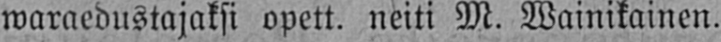waraedustajaksi opett. neiti M. Wainikainen.
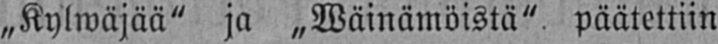„Kylwäjää" ja „Wäinämöistä" päätettiin
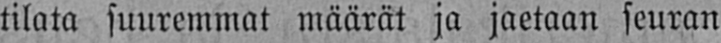tilata suuremmat määrät ja jaetaan seuran
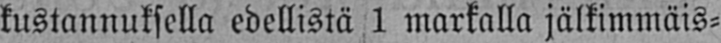kustannuksella edellistä 1 markalla jälkimmäis-
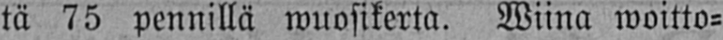tä 75 pennillä wuosikerta. Wiina woitto-
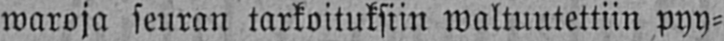waroja seuran tarkoituksiin waltuutettiin pyy-
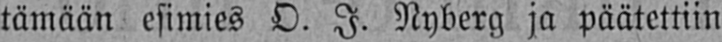tämään esimies O. I. Nyberg ja päätettiin
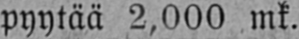pyytää 2,000 mk.
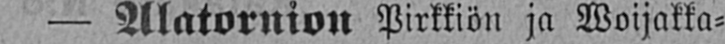— Alatornion Pirkkiön ja Woijakka-
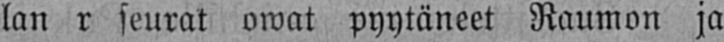lan r seurat owat pyytäneet Raumon ja
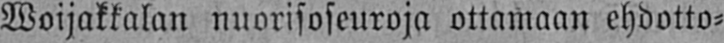Woijakkalan nuorisoseuroja ottamaan ehdotto-
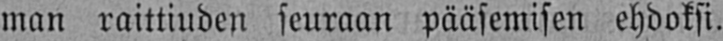man raittiuden seuraan pääsemisen ehdoksi.
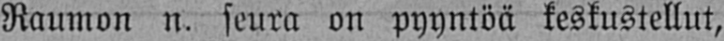Raumon n. seura on pyyntöä keskustellut,
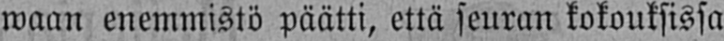waan enemmistö päätti, että seuran kokouksissa
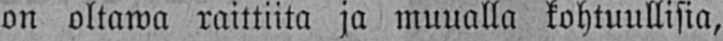on oltawa raittiita ja muualla kohtuullisia,
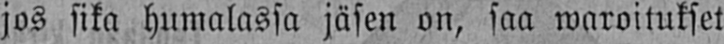jos sika humalassa jäsen on, saa waroitukset
